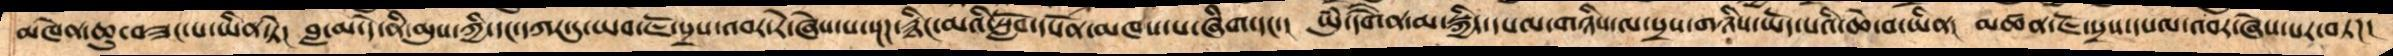མཁེན་ཆུ་བཟང་པ་ཡིན་ཏེ།  བླ་མ་དེ་ནི་མུས་ཀྱི་དང་དཀར་དུ་ཡབ་ཇོ་སྲས་འབར་རེ་ཞེས་པ་སྔཌརྙིང་མའི་སློབ་དཔོན་མཁས་པ་ཞིག་དང་།  ཡུཾ་དགཻན་མ་སྐྱིད་དཔལ་གཉིས་ལ་སྲས་གཉིས་ཡོད་པའི་ཆེ་བ་ཡིན། མཚན་ཇོ་སྲས་དཔལ་འབར་ཞེས་པར་བཏཌ།
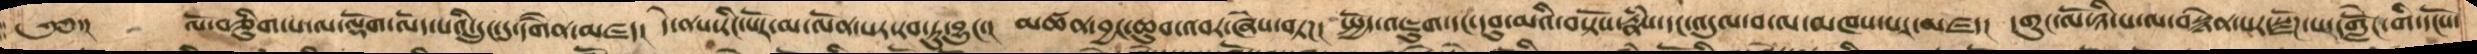༄༅་།     ལོ་བཅིུག་པ་ལ་ལྡོག་ལོད་པའི་དྲུང་དུ་དགཻན་མཛད།  དེ་ནས་རིང་པོར་མ་ལོན་པར་རབ་ཏུ་བྱུང་།  མཚན་བྱང་ཆུབ་འབར་ཞེས་བཏཌ།  སྤྱོད་འཇུག་དང་དབུ་མའི་བསྟོས་རྣཾས་དང་འདུལ་བ་ལ་མཁས་པར་མཛད།  དགུང་ལོ་ཉི་པ་ལ་བསྙེན་པར་སྫོཌ་པ་དགློངེ་གི་དངོས་
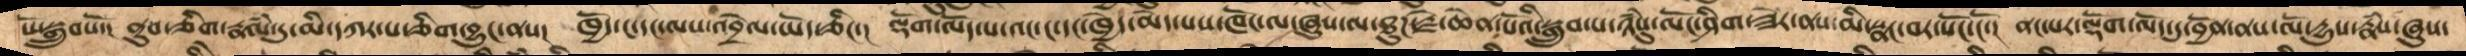པོ་སྒྲུབསོ་།  ནུབ་ཅིག་རྣལཾ་དུ་དཀར་པ་ཅིག་བྱུང་ནས།  ཁྱོད་ང་དང་ལས་འབྲེལ་ཡོད་ཅིང་།  ལྡོག་ལོད་པ་འང་ང་དང་ཁྱེད་མེད་པས་ཁོང་ལ་ཞུས་ལ་ཐུཌ་རྗེ་ཆེན་པོའི་སྒྲུབ་པ་ཉཾསུ་ལོང་ཤིག་ཟེར་ནས་མི་སྣང་བར་སོང་ངོ་།  ནང་པར་ལྡོག་ལོད་དུ་བྱོན་ནས་ལོ་དྱུས་རྣཾས་ཞུས་
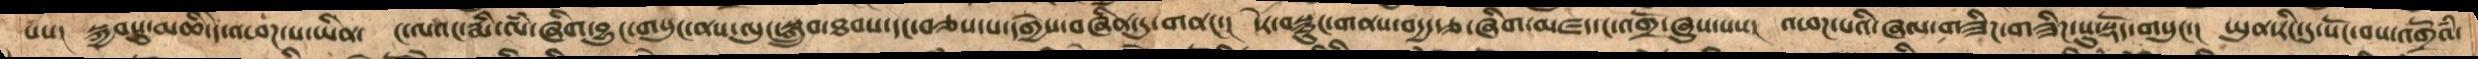པས།    སྐྱབསུ་མཆི་དེ་འཕཌ་པ་ཡིན་  ང་ལའང་རྨི་ལཾ་ཞིག་བྱུང་གསུང་ནས་ལུང་སྒྲུབ་ཐབས་དང་བཅས་པ་དགྱེས་བཞིན་དུ་གནང་།  དེར་བསྙུང་གནས་བདྱ་རྩ་ཞིག་མཛད་དང་འགྲོ་ཞུས་པས།  འཕཌ་པའི་ཞལ་གཟིཌ་གཟིཌ་སུ་སྡོད་གསུང་།   ཡུན་རིང་དུ་སོང་བས་འགྲོའཾ་
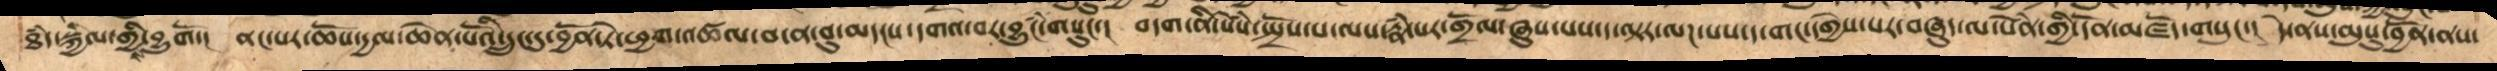ཐཾད་སྐྱིལ་གྱིས་བྱུགོ་། ནང་པར་ཆོས་དྱལ་ཆེན་པོའི་དྲུང་དུ་བྱོན་ཏེ་ཕྱག་འཚལ་བ་ན་བུ་མདངས། དགའ་བར་བྱུངཾ་གསུང་། བདག་ནི་སེཾས་སྤྲོས་པ་ལས་རྣཾ་པར་གྲོལ་ཞུས་པས་ད་ལྟར་ལཌ་པས་ད་གང་དགྱེས་པར་བཞུད་ལ་སེཾན་གྱི་དོན་མཛོད་གསུང་།  དེ་ནས་མུསུ་བྱོན་ནས་
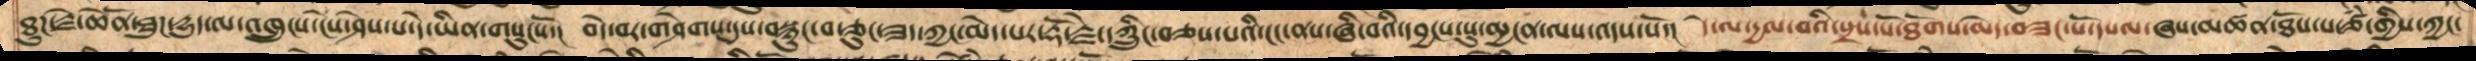ཐུཌ་རྗེ་ཆེནོ་ཐུཌ་དྱུད་ལ་འཁྲུངས་ངེས་ཤེས་པ་དེ་ཡིན་གསུངསོ་།  བདེ་བར་གཤེགས་དུས་བསྙུང་བ་ཅུང་ཟད་ཀྱང་མེད་པར་རྡོ་རྗེ་དཀྲིུང་བཅས་པའི་ངང་ནས་ཞི་བའི་དབྱངས་སུ་མྱངན་ལས་འདས་སོ་།  དེ་ལ་དྱལ་བའི་སྲས་པོ་ཐོགས་མེད་བཟང་པོ་དཔལ་ཞས་མཚན་ཐོས་པ་ཙཾ་གྱིས་ཀྱང་
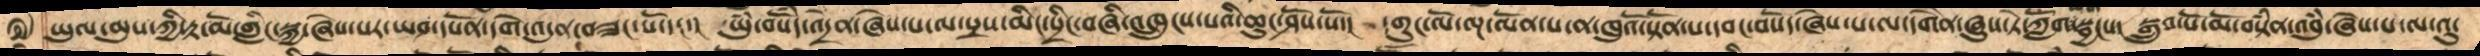ཡུལ་མུས་ཀྱི་རྟ་མོ་གླིང་སྐྱ་ཞེས་པར་ཡབ་དཔོན་དགེ་འདུན་བཟང་པོ་དང་། ཡུཾ་བསོཾད་འདྲེན་ཞེས་པ་ལ་སྲས་མིང་སྲིང་བཞི་འཁྲུངས་པའི་ཆུང་ཤོས་སོ་།  དགུང་ལོ་ལྔ་ལོན་པ་ན་ཁུའོ་སྟོན་པ་དབང་བསོད་ཞེས་པ་ལ་དགཻན་ཞུས་ཏེ་ཀློག་སྦྱངས། སྒྲུབ་པོ་མོ་བསྟཾན་འབུཾ་ཞེས་པ་ལ་འུ་
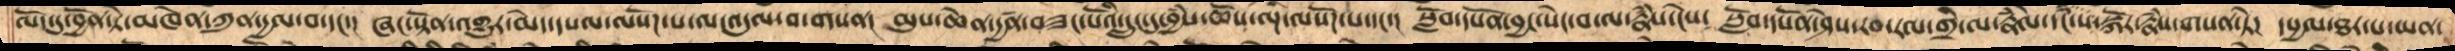ལོང་དུ་བྱོན་ཏེ་མཁེན་ཀུན་དྱལ་བ་དང་།  ཞང་སྟོན་འགྱུར་མེད་དཔལ་ལསོཌ་པ་ལ་འདུལ་བ་གསན།  མུས་ཆེན་དྱཚན་བཟང་པོའི་དྲུང་དུ་བྱཾས་ཆོས་ལྔ་ལསོཌ་པ་དང་།  སློབ་དཔོན་བྱང་སེང་བ་ལ་རྣཾས་ངེས་  སློབ་དཔོན་ཤེས་རབ་རལ་གྲི་ལ་རྣེཾལ་དངཾ་ས་སྐོར་རྣཾས་གསན་ཏེ།  དཔྱལ་ཐར་པ་ཡན་
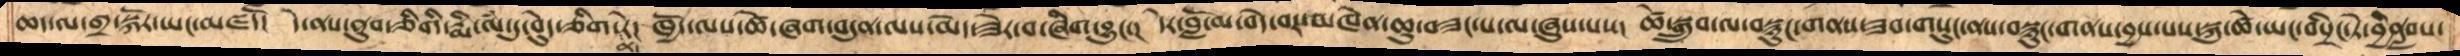ཆད་ལ་གྲ་སྐོར་ཡང་མཛད།ོ དེ་ནས་ནུབ་ཅིགི་རྨི་ལཾ་དུ་བེུད་ཅིག་ན་རེ། ཁྱོད་ལས་ཚེ་ཞག་བདུན་ལས་མེད་ཟེར་བ་ཞིག་བྱུང་། དེར་བློ་མ་བདེ་བར་མཁེན་ཆུ་བཟང་པ་ལ་ཞུས་པས། ཚེ་སྒྲུབ་ལ་བསྙུང་གནས་ཟབ་གསུང་ནས་བསྙུང་གནས་བྱས་པས་སྐུ་ཚེ་ཡང་བསྲིང་ཏེ་བྱིནླབས་
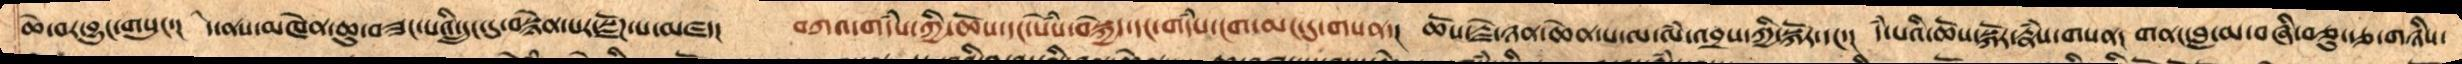ཆེ་བར་བྱུང་གསུང་།  དེ་ནས་མཁེན་ཆུ་བཟང་པའི་དྲུང་དུ་བསྙེལ་པར་སྫོཌ་པ་མཛད།  བཀའ་གདཾས་ཀྱི་ཆོས་དང་སེཾས་བསྐྱེད་དང་གདཾས་ངག་མང་དུ་གསན་།  ཆོས་རྗེ་ཉན་ཆེན་པ་ལ་ལཾ་འབྲས་ཀྱི་སྐོར་དང་།   དཾ་པའི་ཆོས་སྐོར་རྣཾས་གསན།  གནང་བླ་མ་བཞི་བཅུ་རྩ་གཉིས་
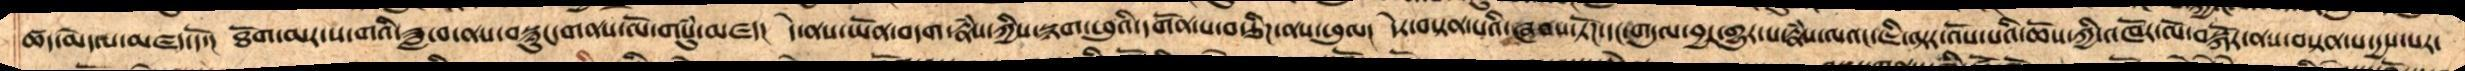ཚད་མེདལ་མཛད་དོ།  ཐོག་མར་ས་གའི་ཟླ་བ་ནས་བསྙུང་གནས་ལོ་གསུཾ་མཛད།  དེ་ནས་ཡོན་བདག་རྣཾས་ཀྱིས་སྙག་ཕུའི་དགོན་པ་བརྩིཌ་ནས་ཕུལ།  དེར་བསྟན་པའི་ཞབས་ཏོཌ་དང་གདུལ་བྱར་གྱུར་པ་རྣཾས་ལའང་ཇི་ལྟར་འོས་པའི་ཆོས་ཀྱི་འཁོར་ལོ་བསྐོར་ནས་བསྟན་པ་དྱས་པར་
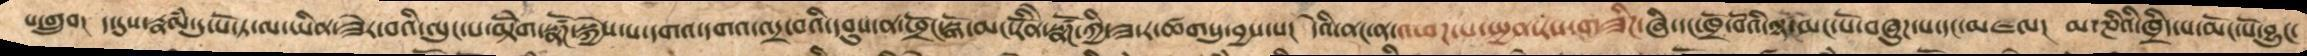པ་གྲུབ།   ད་དུས་རྣལཾ་དུ་པོ་ཏ་ལ་ཡིན་ཟེར་བའི་ལུང་པ་མྟེགོ་སྣཚོཌ་སྐྱེས་པ་དགའ་དགའ་འདྲ་བའི་དབུས་ན་ཕྲོང་སྒོ་མང་རིནོེ་སྣཚོཌ་ཀྱི་ཟ་ར་ཚགསུ་བྱས་པ།  དེའི་ནང་ན་འཕཌ་པ་སྤྱན་རས་གཟིཌ་ཞི་དང་ཁྲོ་བོའི་ལྷ་མང་པོ་བཞུཌ་པ་དང་མཇལ།   མ་ཎིའི་ཁྲིད་པ་མོང་པོ་བྱུང་
